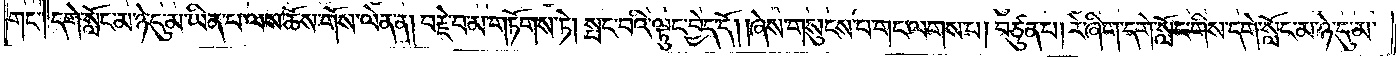གང༌། དགེ་སློང་མ་ཉེ་དུ་མ་ཡིན་པ་ལས་ཆོས་གོས་ལེན་ན། བརྗེ་བ་མ་གཏོགས་ཏེ། སྤང་བའི་ལྟུང་བྱེད་དོ། །ཞེས་གསུངས་པ་གང་ལགས་པ། བཙུན་པ། རེ་ཞིག་དགེ་སློང་གིས་དགེ་སློང་མ་ཉེ་དུ་མ་
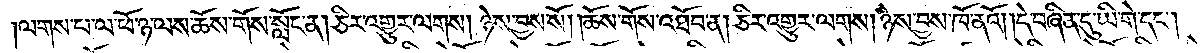།ལགས་པ་ལ་ཕོ་ཉ་ལས་ཆོས་གོས་སློང་ན། ཅིར་འགྱུར་ལགས། ཉེས་བྱས་སོ། །ཆོས་གོས་འཐོབ་ན། ཅིར་འགྱུར་ལགས། ཉེས་བྱས་ཁོ་ནའོ། །དེ་བཞིན་དུ་ཡི་གེ་དང༌།
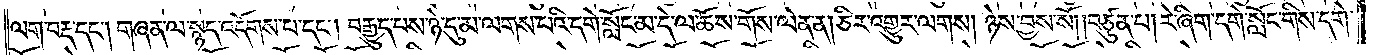ལག་བརྡ་དང༌། གཞན་ལ་སྙད་འདོགས་པ་དང༌། བརྒྱུད་པས་ཉེ་དུ་མ་ལགས་པའི་དགེ་སློང་མ་དེ་ལ་ཆོས་གོས་ལེན་ན། ཅིར་འགྱུར་ལགས། ཉེས་བྱས་སོ། །བཙུན་པ། རེ་ཞིག་དགེ་སློང་གིས་དགེ་
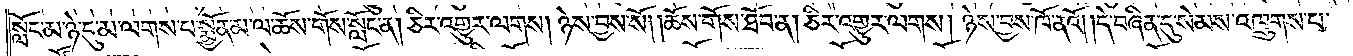སློང་མ་ཉེ་དུ་མ་ལགས་པ་སྨྱོན་མ་ལ་ཆོས་གོས་སློང་ན། ཅིར་འགྱུར་ལགས། ཉེས་བྱས་སོ། །ཆོས་གོས་ཐོབ་ན། ཅིར་འགྱུར་ལགས། ཉེས་བྱས་ཁོ་ནའོ། །དེ་བཞིན་དུ་སེམས་འཁྲུགས་པ་
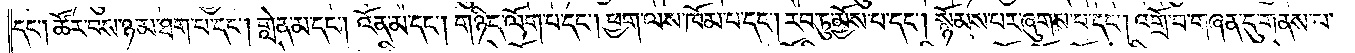དང༌། ཚོར་བས་ཉམ་ཐག་པ་དང༌། གླེན་མ་དང༌། འོན་མ་དང༌། གཉིད་ལོག་པ་དང༌། ཕྱག་ལས་ཁོམ་པ་དང༌། རབ་ཏུ་མྱོས་པ་དང༌། སྙོམས་པར་ཞུགས་པ་དང༌། འགྲོ་བ་གཞན་དུ་གནས་པ་
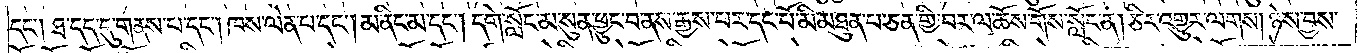དང༌། ཐ་དད་དུ་གནས་པ་དང༌། ཁས་ལེན་པ་དང༌། མ་ནིང་མ་དང༌། དགེ་སློང་མ་སུན་ཕྱུང་བ་ནས་རྒྱས་པར་དང་པོ་མི་མཐུན་པ་ཅན་གྱི་བར་ལ་ཆོས་གོས་སློང་ན། ཅིར་འགྱུར་ལགས། ཉེས་བྱས་
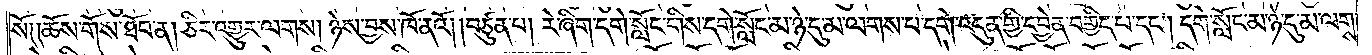སོ། །ཆོས་གོས་ཐོབ་ན། ཅིར་འགྱུར་ལགས། ཉེས་བྱས་ཁོ་ནའོ། །བཙུན་པ། རེ་ཞིག་དགེ་སློང་གིས་དགེ་སློང་མ་ཉེ་དུ་མ་ལགས་པ་དགེ་འདུན་གྱི་དབྱེན་བགྱིད་པ་དང༌། དགེ་སློང་མ་ཉེ་དུ་མ་ལགས་
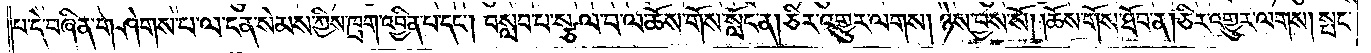པ་དེ་བཞིན་གཤེགས་པ་ལ་ངན་སེམས་ཀྱིས་ཁྲག་འབྱིན་པ་དང༌། བསླབ་པ་སྩལ་བ་ལ་ཆོས་གོས་སློང་ན། ཅིར་འགྱུར་ལགས། ཉེས་བྱས་སོ། །ཆོས་གོས་ཐོབ་ན། ཅིར་འགྱུར་ལགས། སྤང་
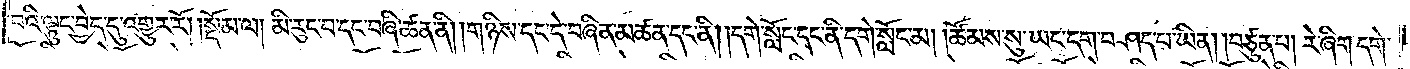བའི་ལྟུང་བྱེད་དུ་འགྱུར་རོ། །སྡོམ་ལ། མི་རུང་བ་དང་བཞི་ཚན་ནི། །གཉིས་དང་དེ་བཞིན་མཚན་དང་ནི། །དགེ་སློང་དང་ནི་དགེ་སློང་མ། །ཚོམས་སུ་ཡང་དག་བཤད་པ་ཡིན། །བཙུན་པ། རེ་ཞིག་དགེ་
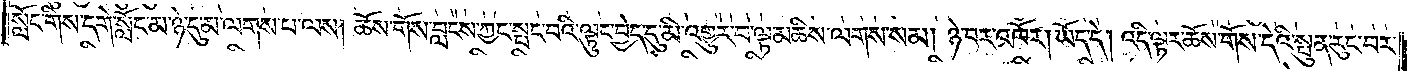སློང་གིས་དགེ་སློང་མ་ཉེ་དུ་མ་ལགས་པ་ལས། ཆོས་གོས་བླངས་ཀྱང་སྤང་བའི་ལྟུང་བྱེད་དུ་མི་འགྱུར་བ་ལྟ་མཆིས་ལགས་སམ། ཉེ་བར་འཁོར། ཡོད་དེ། འདི་ལྟར་ཆོས་གོས་དེའི་སྤུན་རུང་བར་
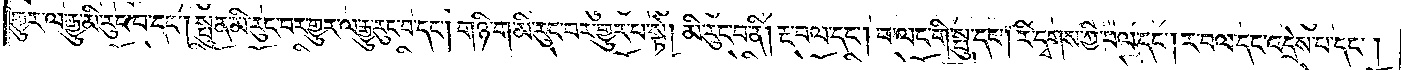གྱུར་ལ་རྒྱུ་མི་རུང་བ་དང༌། སྤུན་མི་རུང་བར་གྱུར་ལ་རྒྱུ་རུང་བ་དང༌། གཉི་ག་མི་རུང་བར་གྱུར་པ་སྟེ། མི་རུང་བ་ནི། རྔ་བལ་དང༌། བ་ལང་གི་སྤུ་དང༌། རི་དྭགས་ཀྱི་བལ་དང༌། ར་བལ་དང་འདྲེས་པ་དང༌།
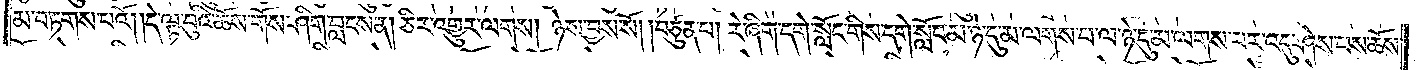མ་བཏགས་པའོ། །དེ་ལྟ་བུའི་ཆོས་གོས་ཤིག་བླངས་ན། ཅིར་འགྱུར་ལགས། ཉེས་བྱས་སོ། །བཙུན་པ། རེ་ཞིག་དགེ་སློང་གིས་དགེ་སློང་མ་ཉེ་དུ་མ་ལགས་པ་ལ་ཉེ་དུ་མ་ལགས་པར་འདུ་ཤེས་པས་ཆོས་
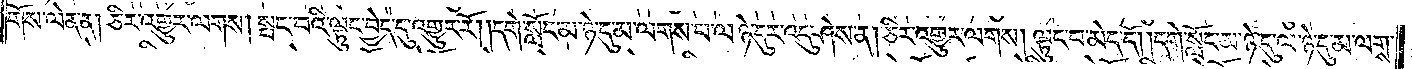གོས་ལེན་ན། ཅིར་འགྱུར་ལགས། སྤང་བའི་ལྟུང་བྱེད་དུ་འགྱུར་རོ། །དགེ་སློང་མ་ཉེ་དུ་མ་ལགས་པ་ལ་ཉེ་དུར་འདུ་ཤེས་ན། ཅིར་འགྱུར་ལགས། ལྟུང་བ་མེད་དོ། །དགེ་སློང་མ་ཉེ་དུ་ལ་ཉེ་དུ་མ་ལགས་
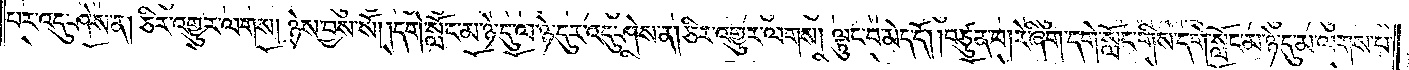པར་འདུ་ཤེས་ན། ཅིར་འགྱུར་ལགས། ཉེས་བྱས་སོ། །དགེ་སློང་མ་ཉེ་དུ་ལ་ཉེ་དུར་འདུ་ཤེས་ན། ཅིར་འགྱུར་ལགས། ལྟུང་བ་མེད་དོ། །བཙུན་པ། རེ་ཞིག་དགེ་སློང་གིས་དགེ་སློང་མ་ཉེ་དུ་མ་ལགས་པ་
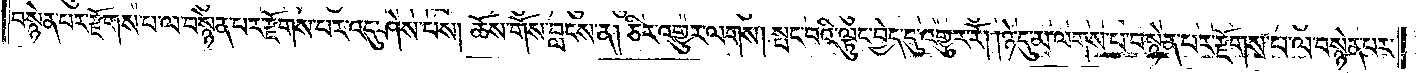བསྙེན་པར་རྫོགས་པ་ལ་བསྙེན་པར་རྫོགས་པར་འདུ་ཤེས་པས། ཆོས་གོས་བླངས་ན། ཅིར་འགྱུར་ལགས། སྤང་བའི་ལྟུང་བྱེད་དུ་འགྱུར་རོ། །ཉེ་དུ་མ་ལགས་པ་བསྙེན་པར་རྫོགས་པ་ལ་བསྙེན་པར་
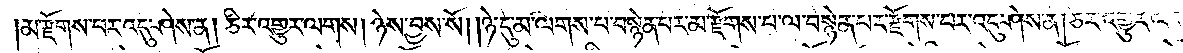།མ་རྫོགས་པར་འདུ་ཤེས་ན། ཅིར་འགྱུར་ལགས། ཉེས་བྱས་སོ། །ཉེ་དུ་མ་ལགས་པ་བསྙེན་པར་མ་རྫོགས་པ་ལ་བསྙེན་པར་རྫོགས་པར་འདུ་ཤེས་ན། ཅིར་འགྱུར་(ལགས།)
